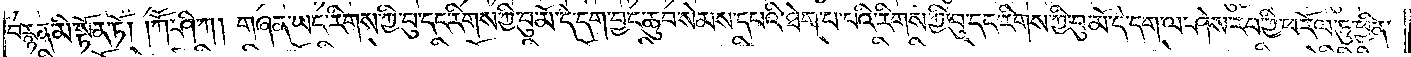བརྙན་མི་སྟོན་ཏོ། །ཀཽ་ཤི་ཀ། གཞན་ཡང་རིགས་ཀྱི་བུ་དང་རིགས་ཀྱི་བུ་མོ་དེ་དག་བྱང་ཆུབ་སེམས་དཔའི་ཐེག་པ་པའི་རིགས་ཀྱི་བུ་དང་རིགས་ཀྱི་བུ་མོ་དེ་དག་ལ་ཤེས་རབ་ཀྱི་ཕ་རོལ་ཏུ་ཕྱིན་
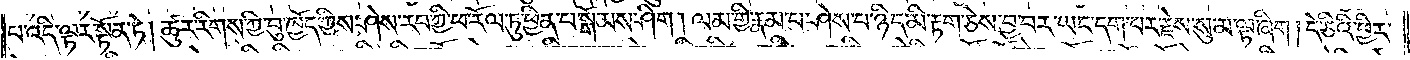པ་འདི་ལྟར་སྟོན་ཏེ། ཚུར་རིགས་ཀྱི་བུ་ཁྱོད་ཀྱིས་ཤེས་རབ་ཀྱི་ཕ་རོལ་ཏུ་ཕྱིན་པ་སྒོམས་ཤིག། ལམ་གྱི་རྣམ་པ་ཤེས་པ་ཉིད་མི་རྟག་ཅེས་བྱ་བར་ཡང་དག་པར་རྗེས་སུ་མ་ལྟ་ཞིག །དེ་ཅིའི་ཕྱིར་
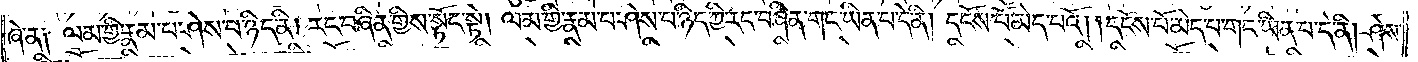ཞེ་ན༑ ལམ་གྱི་རྣམ་པ་ཤེས་པ་ཉིད་ནི། རང་བཞིན་གྱིས་སྟོང་སྟེ། ལམ་གྱི་རྣམ་པ་ཤེས་པ་ཉིད་ཀྱི་རང་བཞིན་གང་ཡིན་པ་དེ་ནི། དངོས་པོ་མེད་པའོ། །དངོས་པོ་མེད་པ་གང་ཡིན་པ་དེ་ནི། ཤེས་
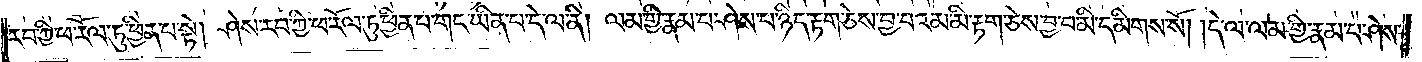རབ་ཀྱི་ཕ་རོལ་ཏུ་ཕྱིན་པ་སྟེ། ཤེས་རབ་ཀྱི་ཕ་རོལ་ཏུ་ཕྱིན་པ་གང་ཡིན་པ་དེ་ལ་ནི། ལམ་གྱི་རྣམ་པ་ཤེས་པ་ཉིད་རྟག་ཅེས་བྱ་བའམ་མི་རྟག་ཅེས་བྱ་བ་མི་དམིགས་སོ། །དེ་ལ་ལམ་གྱི་རྣམ་པ་ཤེས་
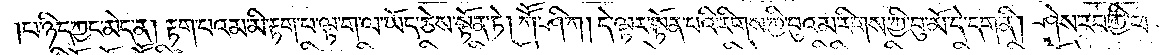པ་ཉིད་ཀྱང་མེད་ན། རྟག་པའམ་མི་རྟག་པ་ལྟ་ག་ལ་ཡོད་ཅེས་སྟོན་ཏེ། ཀཽ་ཤི་ཀ། དེ་ལྟར་སྟོན་པའི་རིགས་ཀྱི་བུའམ་རིགས་ཀྱི་བུ་མོ་དེ་དག་ནི། ཤེས་རབ་ཀྱི་ཕ་
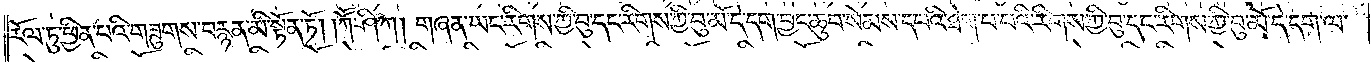རོལ་ཏུ་ཕྱིན་པའི་གཟུགས་བརྙན་མི་སྟོན་ཏོ། །ཀཽ་ཤི་ཀ། གཞན་ཡང་རིགས་ཀྱི་བུ་དང་རིགས་ཀྱི་བུ་མོ་དེ་དག་བྱང་ཆུབ་སེམས་དཔའི་ཐེག་པ་པའི་རིགས་ཀྱི་བུ་དང་རིགས་ཀྱི་བུ་མོ་དེ་དག་ལ་
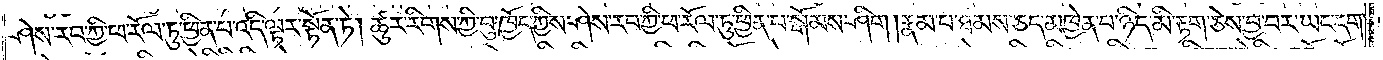ཤེས་རབ་ཀྱི་ཕ་རོལ་ཏུ་ཕྱིན་པ་འདི་ལྟར་སྟོན་ཏེ། ཚུར་རིགས་ཀྱི་བུ་ཁྱོད་ཀྱིས་ཤེས་རབ་ཀྱི་ཕ་རོལ་ཏུ་ཕྱིན་པ་སྒོམས་ཤིག །རྣམ་པ་ཐམས་ཅད་མཁྱེན་པ་ཉིད་མི་རྟག་ཅེས་བྱ་བར་ཡང་དག་
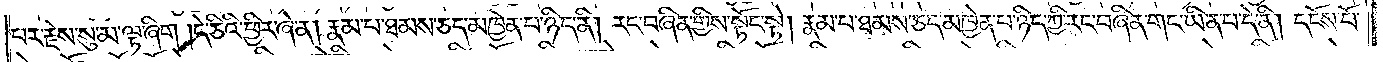པར་རྗེས་སུ་མ་ལྟ་ཞིག །དེ་ཅིའི་ཕྱིར་ཞེ་ན། རྣམ་པ་ཐམས་ཅད་མཁྱེན་པ་ཉིད་ནི། རང་བཞིན་གྱིས་སྟོང་སྟེ། རྣམ་པ་ཐམས་ཅད་མཁྱེན་པ་ཉིད་ཀྱི་རང་བཞིན་གང་ཡིན་པ་དེ་ནི། དངོས་པོ་
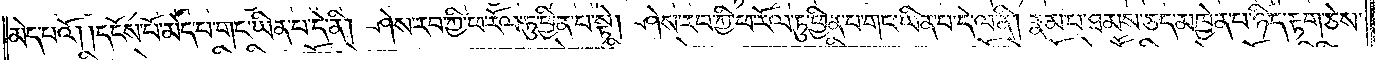མེད་པའོ། །དངོས་པོ་མེད་པ་གང་ཡིན་པ་དེ་ནི། ཤེས་རབ་ཀྱི་ཕ་རོལ་ཏུ་ཕྱིན་པ་སྟེ། ཤེས་རབ་ཀྱི་ཕ་རོལ་ཏུ་ཕྱིན་པ་གང་ཡིན་པ་དེ་ལ་ནི། རྣམ་པ་ཐམས་ཅད་མཁྱེན་པ་ཉིད་རྟག་ཅེས་
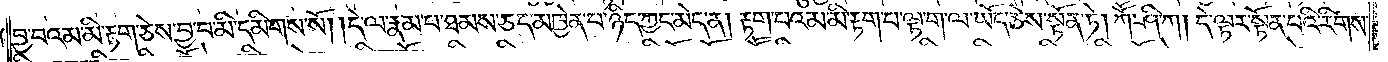བྱ་བའམ་མི་རྟག་ཅེས་བྱ་བ་མི་དམིགས་སོ། །དེ་ལ་རྣམ་པ་ཐམས་ཅད་མཁྱེན་པ་ཉིད་ཀྱང་མེད་ན། རྟག་པའམ་མི་རྟག་པ་ལྟ་ག་ལ་ཡོད་ཅེས་སྟོན་ཏེ། ཀཽ་ཤི་ཀ། དེ་ལྟར་སྟོན་པའི་རིགས་
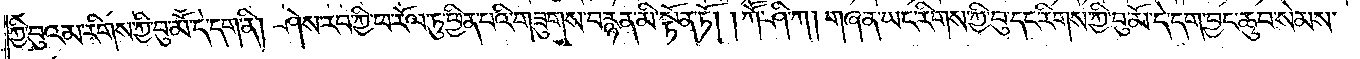ཀྱི་བུའམ་རིགས་ཀྱི་བུ་མོ་དེ་དག་ནི། ཤེས་རབ་ཀྱི་ཕ་རོལ་ཏུ་ཕྱིན་པའི་གཟུགས་བརྙན་མི་སྟོན་ཏོ། །ཀཽ་ཤི་ཀ། གཞན་ཡང་རིགས་ཀྱི་བུ་དང་རིགས་ཀྱི་བུ་མོ་དེ་དག་བྱང་ཆུབ་སེམས་
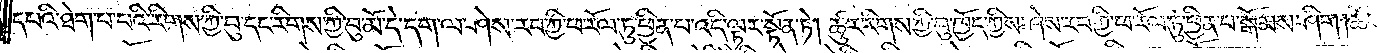དཔའི་ཐེག་པ་པའི་རིགས་ཀྱི་བུ་དང་རིགས་ཀྱི་བུ་མོ་དེ་དག་ལ་ཤེས་རབ་ཀྱི་ཕ་རོལ་ཏུ་ཕྱིན་པ་འདི་ལྟར་སྟོན་ཏེ། ཚུར་རིགས་ཀྱི་བུ་ཁྱོད་ཀྱིས་ཤེས་རབ་ཀྱི་ཕ་རོལ་ཏུ་ཕྱིན་པ་སྒོམས་ཤིག །ཆོས་
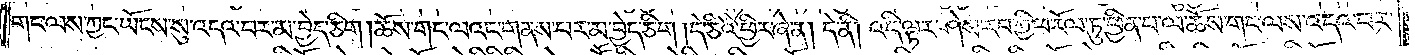གང་ལས་ཀྱང་ཡོངས་སུ་འདའ་བར་མ་བྱེད་ཅིག །ཆོས་གང་ལའང་གནས་པར་མ་བྱེད་ཅིག། དེ་ཅིའི་ཕྱིར་ཞེ་ན། དེ་ནི། འདི་ལྟར་ཤེས་རབ་ཀྱི་ཕ་རོལ་ཏུ་ཕྱིན་པ་ལ་ཆོས་གང་ལས་འདའ་བར་
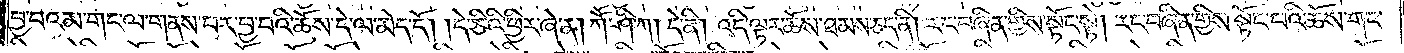བྱ་བའམ་གང་ལ་གནས་པར་བྱ་བའི་ཆོས་དེ་ལ་མེད་དོ། །དེ་ཅིའི་ཕྱིར་ཞེ་ན། ཀཽ་ཤི་ཀ། དེ་ནི། འདི་ལྟར་ཆོས་ཐམས་ཅད་ནི། རང་བཞིན་གྱིས་སྟོང་སྟེ། རང་བཞིན་གྱིས་སྟོང་པའི་ཆོས་གང་
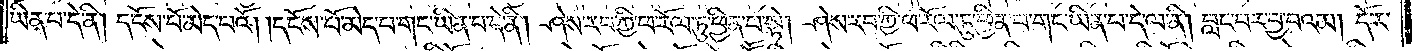ཡིན་པ་དེ་ནི། དངོས་པོ་མེད་པའོ། །དངོས་པོ་མེད་པ་གང་ཡིན་པ་དེ་ནི། ཤེས་རབ་ཀྱི་ཕ་རོལ་ཏུ་ཕྱིན་པ་སྟེ། ཤེས་རབ་ཀྱི་ཕ་རོལ་ཏུ་ཕྱིན་པ་གང་ཡིན་པ་དེ་ལ་ནི། བླང་བར་བྱ་བའམ། དོར་
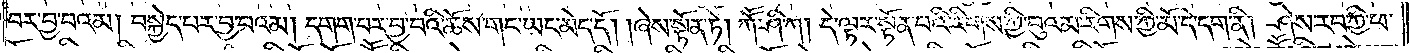བར་བྱ་བའམ། བསྐྱེད་པར་བྱ་བའམ། དགག་པར་བྱ་བའི་ཆོས་གང་ཡང་མེད་དོ། །ཞེས་སྟོན་ཏེ། ཀཽ་ཤི་ཀ། དེ་ལྟར་སྟོན་པའི་རིགས་ཀྱི་བུའམ་རིགས་ཀྱི་བུ་མོ་དེ་དག་ནི། ཤེས་རབ་ཀྱི་ཕ་
